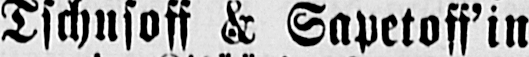Tschusoff & Sapetoff’in
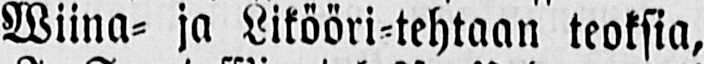Wiina- ja Likööri-tehtaan teoksia,
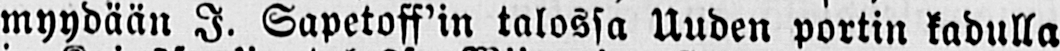myydään I. Sapetoff’ in talossa Uuden portin kadulla
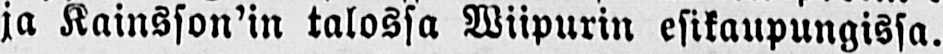ja Kainsson'in talossa Wiipurin esikaupungissa.
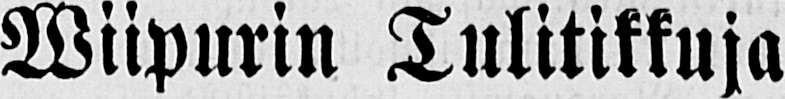Wiipurin Tulitikkuja
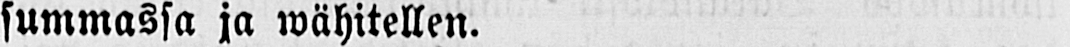summassa ja wähitellen.
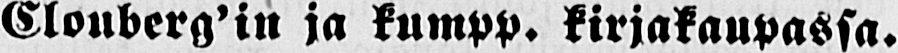Clouberg'in ja kumpp. kirjakaupassa.
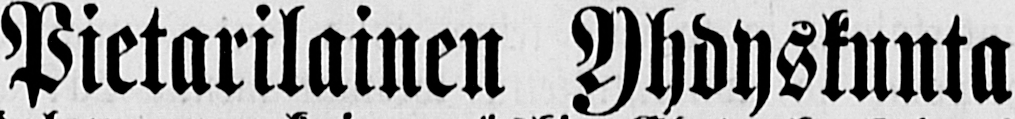Pietarilainen Yhdyskunta
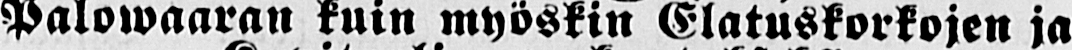Palowaaran kuin myöskin Elatuskorkojen ja
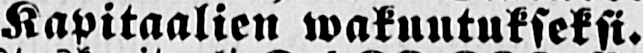Kapitaalien wakuutukseksi.
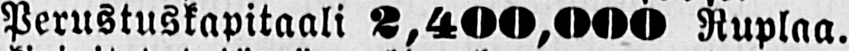Perustuskapitaali 2,400,000 Ruplaa.
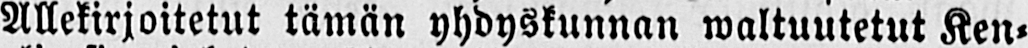Allekirjoitetut tämän yhdyskunnan waltuutetut Ken-
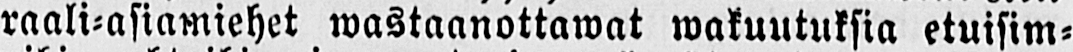raali-asiamiehet wastaanottawat wakuutuksia etuisim-
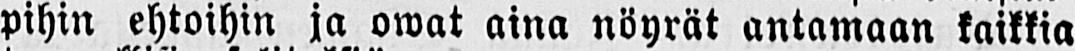pihin ehtoihin ja owat aina nöyrät antamaan kaikkia
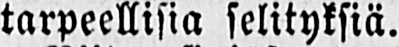tarpeellisia selityksiä.
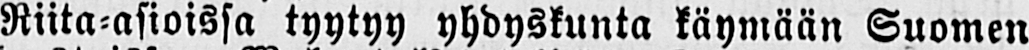Riita-asioissa tyytyy yhdyskunta käymään Suomen
